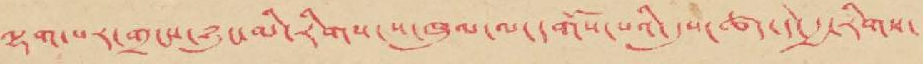ལྷག་པར་གྲངས་ཉུང་མི་རིགས་ས་ཁུལ་ལ་དགོས་པའི་དུས་ཚད་དེ་རྒྱ་རིགས་
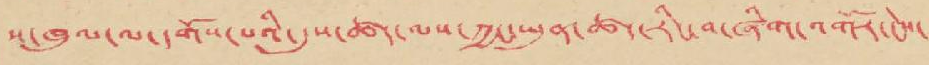ས་ཁུལ་ལ་དགོས་པའི་དུས་ཚད་ལས་ཀྱང་ཡུན་ཚད་རིང་བ་ཞིག་འགོར་ངེས་
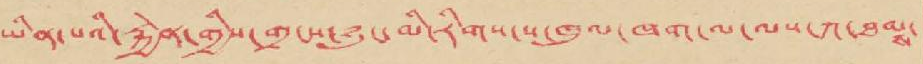ཡིན་པའི་རྐྱེན་གྱིས་གྲངས་ཉུང་མི་རིགས་ས་ཁུལ་ཁག་ལ་ལས་ཀ་ཐམྶ་
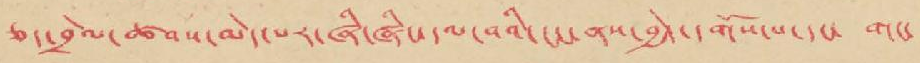ཅད་བྲེལ་ཚབས་མེད་པར་ཞི་ཞིང་དལ་བའི་ངང་ནས་བྱེད་དགོས་པ་དང་ གང་
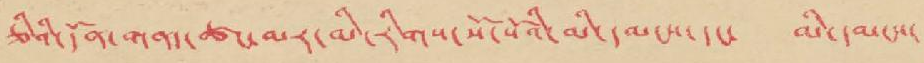ཅིའི་དོན་གནད་ཚང་མར་མི་རིགས་སོ་སོའི་མི་དམངས་དང་ མི་དམངས་
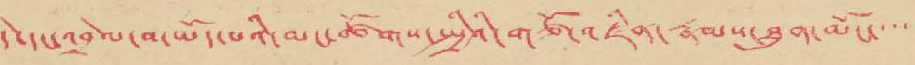དེ་དང་འབྲེལ་བ་ཡོད་པའི་མང་ཚོགས་སྤྱིའི་གཙོ་འཛིན་རྣམས་ཐུན་མོང་་་་
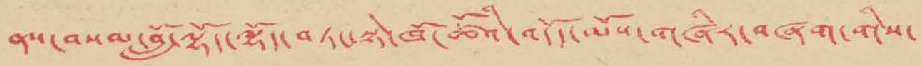ནས་བསམ་བློ་ལྷོད་ལྷོད་བཏང་སྟེ་ཁོ་ཚོའི་འདོད་མོས་གཞིར་བཞག་གིས་
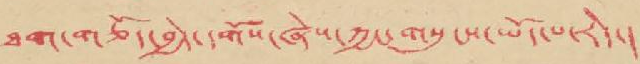ཐག་གཅོད་བྱེད་དགོས་ཞེས་ཀྱང་གསུངས་ཡོད་པ་རེད་།
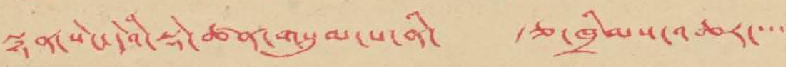སྙན་སེང་དེའི་སྡེ་ཚན་གསུམ་པ་ནི་ རྩ་ཁྲིམས་འཆར་་་་
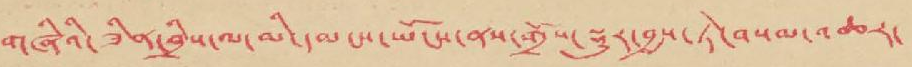གཞིའི་ཟིན་བྲིས་ལ་མི་དམངས་ཡོངས་ནས་གྲོས་སྡུར་བྱས་ཏེ་བསམ་འཆར་
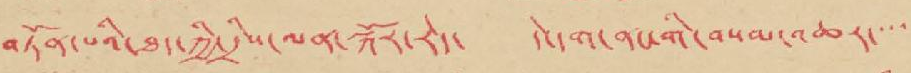བཏོན་པའི་ཐད་ཀྱི་དྲིས་ལན་སྐོར་རེད་ དེ་དག་ནང་གི་བསམ་འཆར་་་་
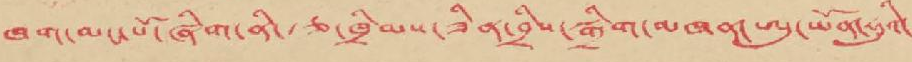ཁག་མང་པོ་ཞིག་ནི་རྩ་ཁྲིམས་ཟིན་བྲིས་སྒྲིག་མཁན་ཨུ་ཡོན་ཧུའི་
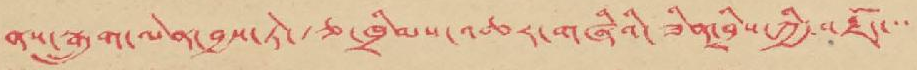ནས་སྒྲུག་ལེན་བྱས་ཏེ་རྩ་ཁྲིམས་འཆར་གཞིའི་ཟིན་བྲིས་ཀྱི་བརྗོད་་་
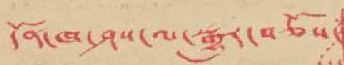དོན་ཁག་ཤས་ལ་སྒྱུར་བཅོས་
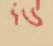དང་
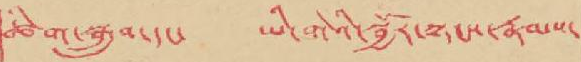ཚིག་སྒྲུབ་དང་ ཡི་གེའི་སྦྱོར་སྟངས་རྣམས་
